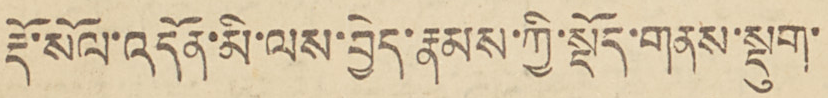རྡོ་སོལ་འདོན་མི་ལས་བྱེད་རྣམས་ཀྱི་སྡོད་གནས་སྡུག་
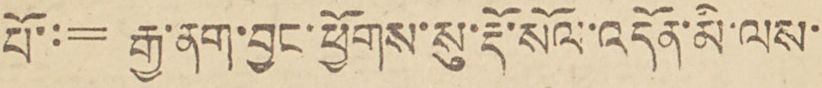པོ་:= རྒྱ་ནག་བྱང་ཕྱོགས་སུ་རྡོ་སོལ་འདོན་མི་ལས་
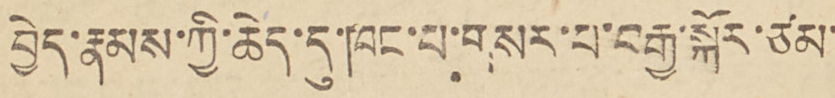བྱེད་རྣམས་ཀྱི་ཆེད་དུ་ཁང་པ་གསར་པ་བརྒྱ་སྐོར་ཙམ་
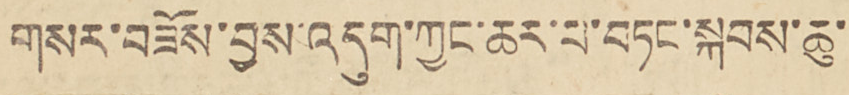གསར་བཟོས་བྱས་འདུག་ཀྱང་ཆར་པ་བཏང་སྐབས་ཆུ་
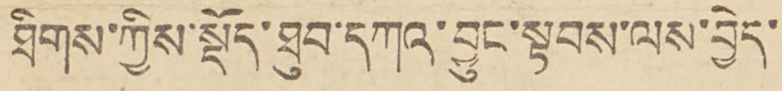ཐིགས་ཀྱིས་སྡོད་ཐུབ་དཀའ་བྱུང་སྟབས་ལས་བྱེད་
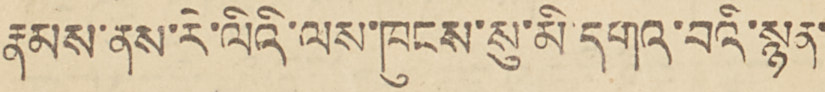རྣམས་ནས་རི་ལིའི་ལས་ཁུངས་སུ་མི་དགའ་བའི་སྙན་
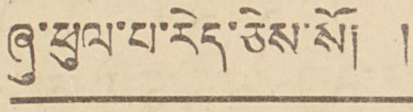ཞུ་ཕུལ་པ་རེད་ཅེས་སོ། །
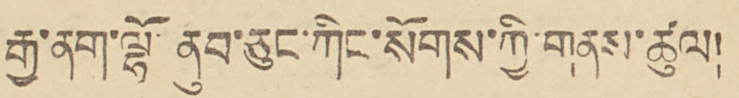རྒྱ་ནག་ལྷོ་ནུབ་ཅུང་ཀིང་སོགས་ཀྱི་གནས་ཚུལ།
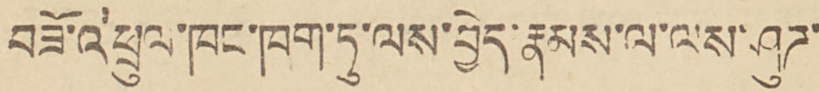བཟོ་འཕྲུལ་ཁང་ཁག་ཏུ་ལས་བྱེད་རྣམ་སླ་ལས་ཤུཌ་
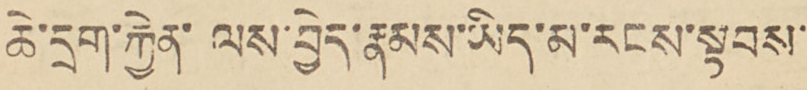ཆེ་དྲག་རྐྱེན་ལས་བྱེད་རྣམས་ཡིད་མ་རངས་སྟབས་
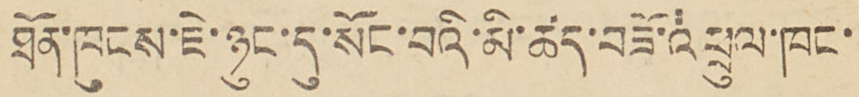ཐོན་ཁུངས་ཇེ་ཉུང་དུ་སོང་བའི་མི་ཚད་བཟོ་འཕྲུལ་ཁང་
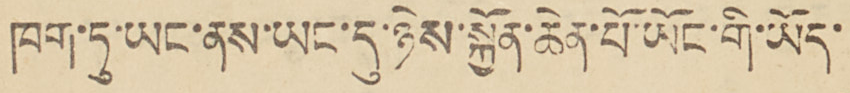ཁག་ཏུ་ཡང་ནས་ཡང་དུ་ཉེས་སྐྱོན་ཆེན་པོ་ཡོང་གི་ཡོད་
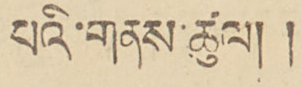པའི་གནས་ཚུལ།།
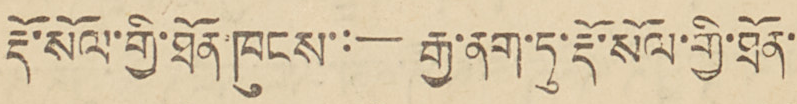རྡོ་སོལ་གྱི་ཐོན་ཁུངས་:— རྒྱ་ནག་ཏུ་རྡོ་སོལ་གྱི་ཐོན་
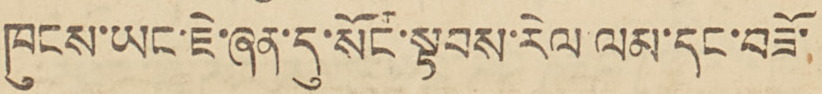ཁུངས་ཡང་ཇེ་ཞན་དུ་སོང་སྟབས་རེལ ལམ་དང་བཟོ་
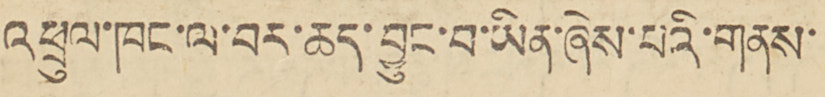འཕྲུལ་ཁང་ལ་བར་ཆད་བྱུང་བ་ཡིན་ཞེས་པའི་གནས་
